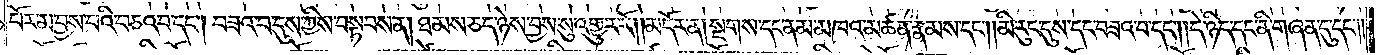པོར་མ་བྱས་པའི་བཅའ་བ་དང༌། བཟའ་བ་དུས་ཀྱིས་བསྟབས་ན། ཐམས་ཅད་ཉེས་བྱས་སུ་འགྱུར་རོ། །མདོར་ན། སྔགས་དང་ནམ་མཁའ་མཚན་རྣམས་དང༌། མི་རུང་དུས་དང་བཟའ་བ་དང༌། །དེ་ཉིད་དང་ནི་གཞན་དུ་དང༌། །
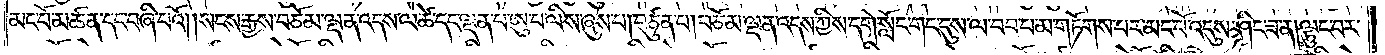མང་པོ་མཚན་དང་བཞི་པའོ། །སངས་རྒྱས་བཅོམ་ལྡན་འདས་ལ་ཚེ་དང་ལྡན་པ་ཨུ་པ་ལིས་ཞུས་པ། བཙུན་པ། བཅོམ་ལྡན་འདས་ཀྱིས་དགེ་སློང་གང་དུས་ལ་བབ་པ་མ་གཏོགས་པར་མང་པོ་འདུས་ཤིང་ཟ་ན། ལྟུང་བར་
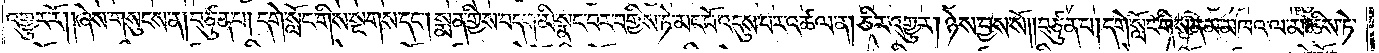འགྱུར་རོ། །ཞེས་གསུངས་ན། བཙུན་པ། དགེ་སློང་གིས་སྔགས་དང༌། སྨན་གྱིས་བདག་མི་སྣང་བར་བགྱིས་ཏེ་མང་པོ་འདུས་པར་འཚལ་ན། ཅིར་འགྱུར། ཉེས་བྱས་སོ། །དགེ་སློང་གིས་ནམ་མཁའ་ལ་མཆིས་ཏེ་
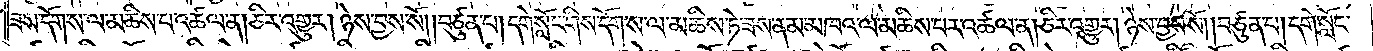ཟས་དོགས་ལ་མཆིས་པ་འཚལ་ན། ཅིར་འགྱུར། ཉེས་བྱས་སོ། །བཙུན་པ། དགེ་སློང་གིས་དོག་ས་ལ་མཆིས་ཏེ་ཟས་ནམ་མཁའ་ལ་མཆིས་པར་འཚལ་ན། ཅིར་འགྱུར། ཉེས་བྱས་སོ། །བཙུན་པ། དགེ་སློང་
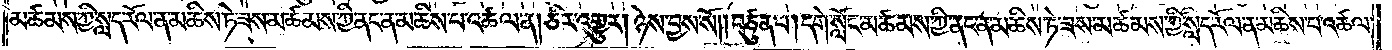མཚམས་ཀྱི་སླད་རོལ་ན་མཆིས་ཏེ་ཟས་མཚམས་ཀྱི་ནང་ན་མཆིས་པ་འཚལ་ན། ཅིར་འགྱུར། ཉེས་བྱས་སོ། །བཙུན་པ། དགེ་སློང་མཚམས་ཀྱི་ནང་ན་མཆིས་ཏེ་ཟས་མཚམས་ཀྱི་སླད་རོལ་ན་མཆིས་པ་འཚལ་
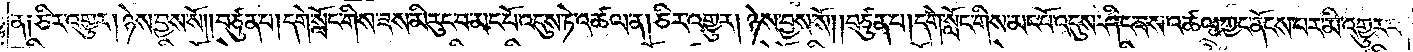ན༑ ཅིར་འགྱུར། ཉེས་བྱས་སོ། །བཙུན་པ། དགེ་སློང་གིས་ཟས་མི་རུང་བ་མང་པོ་འདུས་ཏེ་འཚལ་ན། ཅིར་འགྱུར། ཉེས་བྱས་སོ། །བཙུན་པ། དགེ་སློང་གིས་མང་པོ་འདུས་ཤིང་ཟས་འཚལ་ཀྱང་ནོངས་པར་མི་འགྱུར་བ་
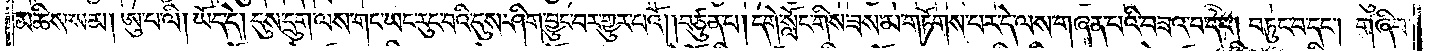མཆིས་སམ། ཨུ་པ་ལི། ཡོད་དེ། དུས་དྲུག་ལས་གང་ཡང་རུང་བའི་དུས་ཤིག་བྱུང་བར་འགྱུར་བའོ། །བཙུན་པ། དགེ་སློང་གིས་ཟས་མ་གཏོགས་པར་དེ་ལས་གཞན་པའི་བཟའ་བ་དང༌། བཏུང་བ་དང༌། གཞིབ་
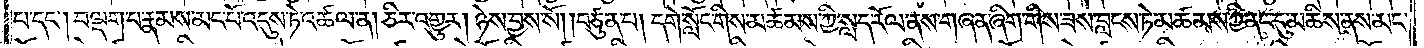པ་དང༌། བལྡག་པ་རྣམས་མང་པོ་འདུས་ཏེ་འཚལ་ན། ཅིར་འགྱུར། ཉེས་བྱས་སོ། །བཙུན་པ། དགེ་སློང་གིས་མཚམས་ཀྱི་སླད་རོལ་ནས་གཞན་ཞིག་གིས་ཟས་བླངས་ཏེ་མཚམས་ཀྱི་ནང་དུ་མཆིས་ནས་མང་
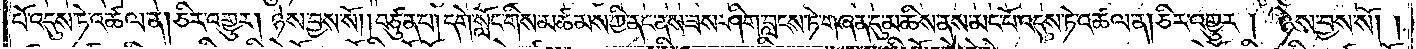པོ་འདུས་ཏེ་འཚལ་ན། ཅིར་འགྱུར། ཉེས་བྱས་སོ། །བཙུན་པ། དགེ་སློང་གིས་མཚམས་ཀྱི་ནང་ནས་ཟས་ཤིག་བླངས་ཏེ་གཞན་དུ་མཆིས་ནས་མང་པོ་འདུས་ཏེ་འཚལ་ན། ཅིར་འགྱུར། ཉེས་བྱས་སོ། །
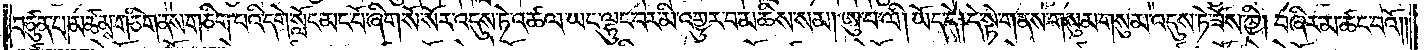བཙུན་པ། མཚམས་གཅིག་ནས་གཅིག་པའི་དགེ་སློང་མང་པོ་ཞིག་སོ་སོར་འདུས་ཏེ་འཚལ་ཡང་ལྷུང་བར་མི་འགྱུར་བ་མཆིས་སམ། ཨུ་པ་ལི། ཡོད་དེ། དེ་སྟེ་གནས་གསུམ་གསུམ་འདུས་ཏེ་ཟོས་ཀྱི། བཞིར་མཚང་བའོ། །
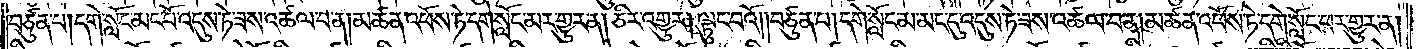བཙུན་པ། དགེ་སློང་མང་པོ་འདུས་ཏེ་ཟས་འཚལ་བ་ན། མཚན་འཕོས་ཏེ་དགེ་སློང་མར་གྱུར་ན། ཅིར་འགྱུར། ལྟུང་བའོ། །བཙུན་པ། དགེ་སློང་མ་མང་དུ་འདུས་ཏེ་ཟས་འཚལ་བ་ན། མཚན་འཕོས་ཏེ་དགེ་སློང་ཕར་གྱུར་ན།
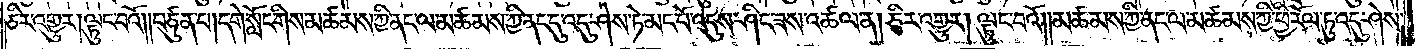ཅིར་འགྱུར། ལྟུང་བའོ། །བཙུན་པ། དགེ་སློང་གིས་མཚམས་ཀྱི་ནང་ལ་མཚམས་ཀྱི་ནང་དུ་འདུ་ཤེས་ཏེ་མང་པོ་འདུས་ཤིང་ཟས་འཚལ་ན། ཅིར་འགྱུར། ལྟུང་བའོ། །མཚམས་ཀྱི་ནང་ལ་མཚམས་ཀྱི་ཕྱི་རོལ་ཏུ་འདུ་ཤེས་
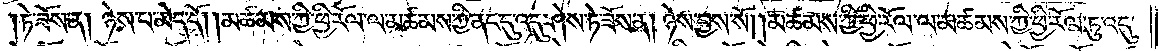ཏེ་ཟོས་ན། ཉེས་པ་མེད་དོ། །མཚམས་ཀྱི་ཕྱི་རོལ་ལ་མཚམས་ཀྱི་ནང་དུ་འདུ་ཤེས་ཏེ་ཟོས་ན། ཉེས་བྱས་སོ། །མཚམས་ཀྱི་ཕྱི་རོལ་ལ་མཚམས་ཀྱི་ཕྱི་རོལ་ཏུ་འདུ་
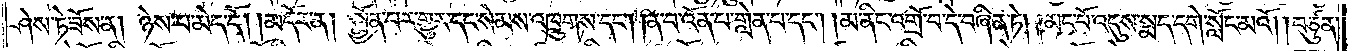ཤེས་ཏེ་ཟོས་ན། ཉེས་པ་མེད་དོ། །མདོར་ན། སྨྱོན་པར་གྱུར་དང་སེམས་འཁྲུགས་དང༌། །ན་བ་འོན་པ་གླེན་པ་དང༌། མ་ནིང་འགྲོ་བ་དེ་བཞིན་ཏེ། མང་པོ་འདུས་སྨད་དགེ་སློང་མའོ། །བཙུན་
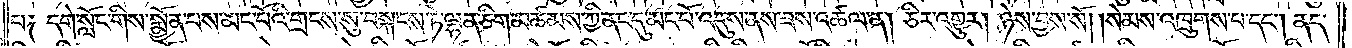པ། དགེ་སློང་གིས་སྨྱོན་པས་མང་པོའི་གྲངས་སུ་བསྐངས་ཏེ་ལྷན་ཅིག་མཚམས་ཀྱི་ནང་དུ་མང་པོ་འདུས་ནས་ཟས་འཚལ་ན། ཅིར་འགྱུར། ཉེས་བྱས་སོ། །སེམས་འཁྲུགས་པ་དང༌། ནད་
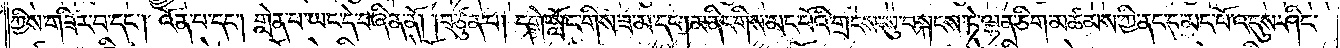ཀྱིས་གཟིར་བ་དང༌། འོན་པ་དང༌། གླེན་པ་ཡང་དེ་བཞིན་ནོ། །བཙུན་པ། དགེ་སློང་གིས་ཟ་མ་དང༌། མ་ནིང་གིས་མང་པོའི་གྲངས་སུ་བསྐངས་ཏེ་ལྷན་ཅིག་མཚམས་ཀྱི་ནང་དུ་མང་པོ་འདུས་ཤིང་
